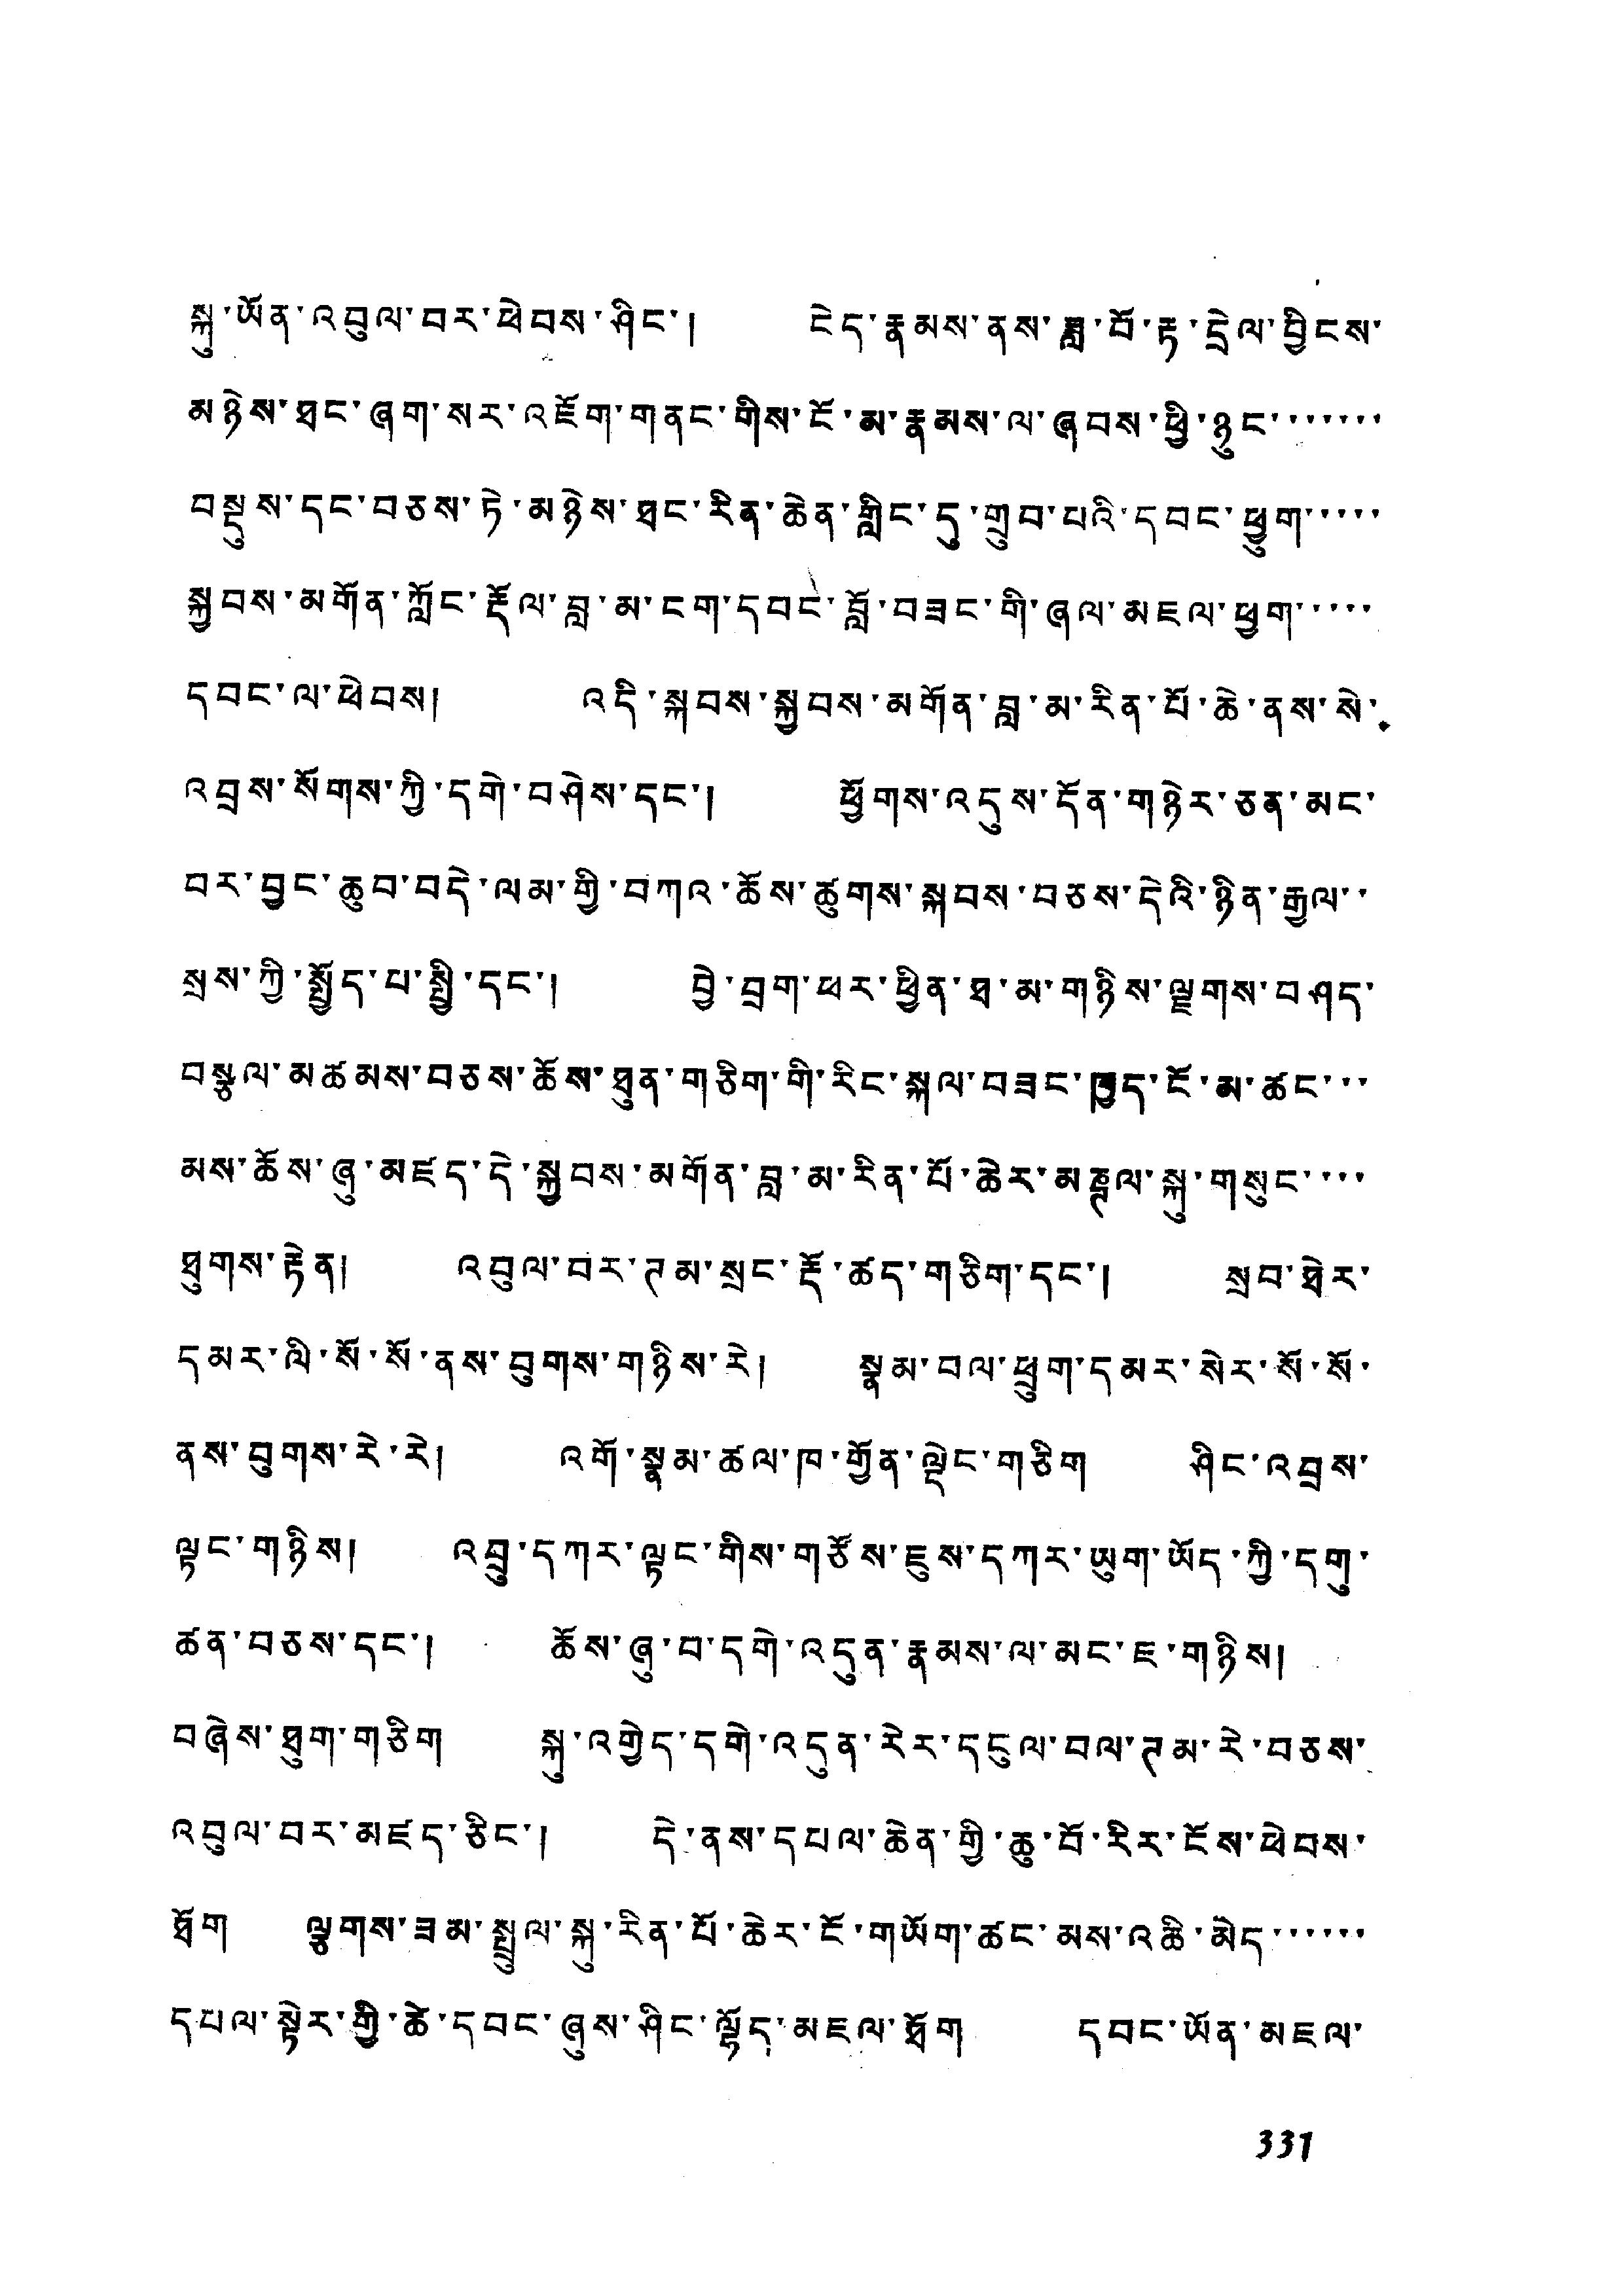སྐུ་ཡོན་འབུལ་བར་ཕེབས་ཤིང་། ངེད་རྣམས་ནས་ཟླ་བོ་རྟ་དྲེལ་བྱིངས་
མཉེས་ཐང་ཞག་སར་འཇོག་གནང་གིས་ངོ་མ་རྣམས་ལ་ཞབས་ཕྱི་ཉུང་་་་་་་
བསྡུས་དང་བཅས་ཏེ་མཉེས་ཐང་རིན་ཆེན་གླིང་དུ་གྲུབ་པའི་དབང་ཕྱུག་་་་་
སྐྱབས་མགོན་ཀློང་རྡོལ་བླ་མ་ངག་དབང་བློ་བཟང་གི་ཞལ་མཇལ་ཕྱག་་་་་
དབང་ལ་ཕེབས། འདི་སྐབས་སྐྱབས་མགོན་བླ་མ་རིན་པོ་ཆེ་ནས་སེ་
འབྲས་སོགས་ཀྱི་དགེ་བཤེས་དང་། ཕྱོགས་འདུས་དོན་གཉེར་ཅན་མང་
བར་བྱང་ཆུབ་བདེ་ལམ་གྱི་བཀའ་ཆོས་ཚུགས་སྐབས་བཅས་དེའི་ཉིན་རྒྱལ་་
སྲས་ཀྱི་སྤྱོད་པ་སྤྱི་དང་། བྱེ་བྲག་ཕར་ཕྱིན་ཐ་མ་གཉིས་ལྗགས་བཤད་
བསྩལ་མཚམས་བཅས་ཆོས་ཐུན་གཅིག་གི་རིང་སྐལ་བཟང་ཁྱད་ངོ་མ་ཚང་་་
མས་ཆོས་ཞུ་མཛད་དེ་སྐྱབས་མགོན་བླ་མ་རིན་པོ་ཆེར་མཎྚལ་སྐུ་གསུང་
ཐུགས་རྟེན། འབུལ་བར་ཊམ་སྲང་རྡོ་ཚད་གཅིག་དང་། སྲབ་ཐེར་
དམར་ལི་སོ་སོ་ནས་བུབས་གཉིས་རེ། སྣམ་བལ་ཕྲུག་དམར་སེར་སོ་སོ་
ནས་བུགས་རེ་རེ། འགོ་སྣམ་ཚལ་ཁ་གྱོན་ལྡེང་གཅིག ཤིང་འབྲས་
ལྟང་གཉིས། འབྲུ་དཀར་ལྟང་གིས་གཙོས་ཇུས་དཀར་ཡུག་ཡོད་ཀྱི་དགུ་
ཚན་བཅས་དང་། ཆོས་ཞུ་བ་དགེ་འདུན་རྣམས་ལ་མང་ཇ་གཉིས།
བཞེས་ཐུག་གཅིག སྐུ་འགྱེད་དགེ་འདུན་རེར་དངུལ་བལ་ཊམ་རེ་བཅས་
འབུལ་བར་མཛད་ཅིང་། དེ་ནས་དཔལ་ཆེན་གྱི་ཆུ་བོ་རིར་ངོས་ཕེབས་
ཐོག ལྕགས་ཟམ་སྤྲུལ་སྐུ་རིན་པོ་ཆེར་ངོ་གཡོག་ཚང་མས་འཆི་མེད་་་་་་
དཔལ་སྟེར་གྱི་ཚེ་དབང་ཞུས་ཤིང་ལྷོད་མཇལ་ཐོག དབང་ཡོན་མཇལ་
331
